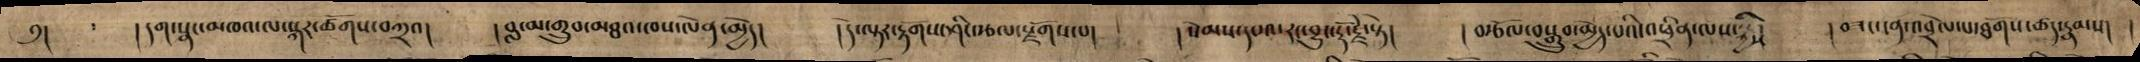༅། །དག་སྣང་མཁའ་ལ་སྐར་ཚོགས་བཀྲའ། །བླ་མ་གྲུབ་མཐའ་ཁས་ལེན་མྱེད། །དེ་ལྟར་རྟགས་ཤིང་རྩལ་སྫོགས་པ། །སེམས་དཔའ་རང་བྱུང་རྡོ་རྗེ་སྟེ། །བརྩོལ་བསྒྲུབ་མྱེད་པའི་འཕྲིན་ལས་ཀྱི། །བཟང་ངན་འབྲེལ་པ་ཐོགས་ཚད་རྣམས། །
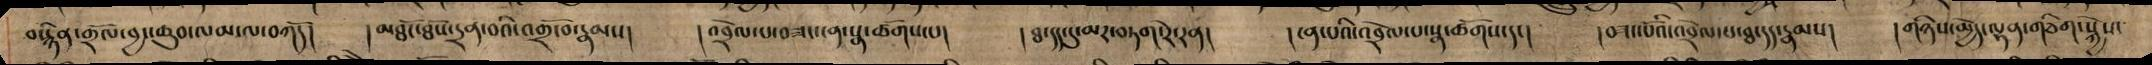བསྙིན་གྲོལ་བྱང་ཆུབ་ལམ་ལ་བཀོད། །མཐོང་ཐོས་དྲན་བའི་འགྲོ་བ་རྣམས། །འབྲེལ་པ་བཟང་ངན་སྣ་ཚོགས་པ། །ཐ་དད་དུ་མར་བཏག་རེ་རན། །ངན་པའི་འབྲེལ་པ་སྣ་ཚོགས་དང། །བཟང་པོའི་འབྲེལ་པ་ཐ་དད་རྣམས། །གཉིས་མྱེད་ལྷན་གཅིག་སྐྱེས་
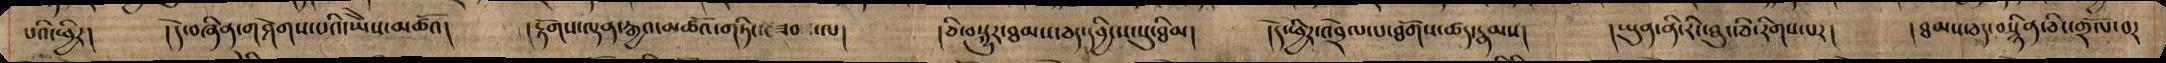པའི་ཕྱིར། །དེ་བཞིན་གཤེགས་པའི་ཡཻས་མཚོའ། །རྟོགས་ལྡན་རྒྱའ་མཚོའ་གཏིང་ཟབས་ལ། །ཅི་བསྐྱིར་ཐམས་ཅད་དབྱིངས་སུ་ཐིམ། །དེ་ཕྱིར་འབྲེལ་པ་ཐོགས་ཚད་རྣམས། །ཡུན་ནི་རིང་ཐུང་ཅི་རིགས་པར། །ཐམས་ཅད་བསྙིན་ཅིང་གྲོལ་བར
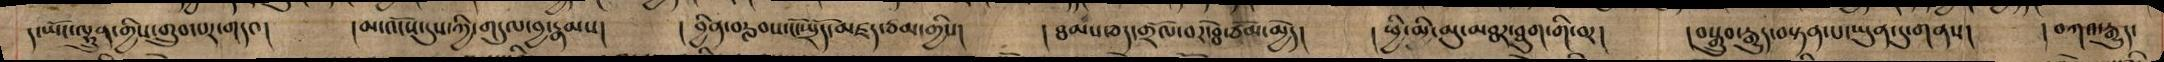ད་ཡོང་ལྷུན་གྱིས་གྲུབ་པར་གདའ། །མ་འོངས་དུས་ཀྱི་གདུལ་བྱ་རྣམས། །བྱིན་བརླབས་ངོ་སྤྲོད་མཛད་ཙམ་གྱིས། །ཐམས་ཅད་གྲོལ་བར་ཐེ་ཙོམ་མྱེད། །ཕྱི་མྱི་མུ་མཐར་ཐུག་གི་བར། །བསྒྲུབ་རྒྱུད་བསྟན་པ་ཡུན་དུ་གནས། །བཀའ་རྒྱུད་
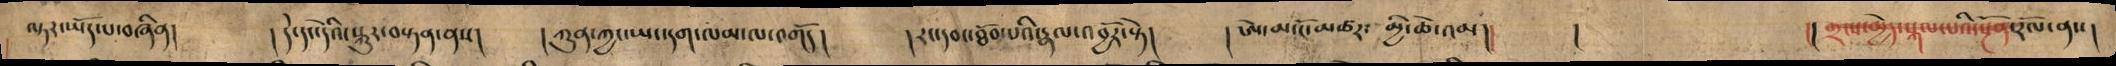ལྟར་ཡོད་པ་བཞིན། །དེ་དང་དེའི་སྐུར་བསྟན་ནས། །ཀུན་ཀྱང་ཡང་དག་ལམ་ལ་འགོད། །རང་དབང་ཐོབ་པའི་རྣལ་འབྱོར་སྟེ། །ཨེ་མ་ངོ་མཚར་ མྱི་ཆེ་འམ།། ། །།གྲངས་མྱེད་སྐལ་པའི་སྔོན་རོལ་ནས།
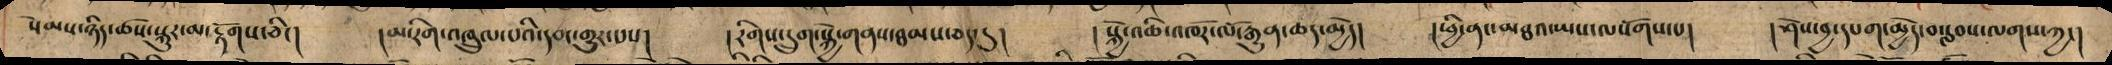སེམས་ཉིད་ཆོས་སྐུར་མ་རྟོགས་ཅིང། །མ་རིག་འཁྲུལ་པའི་དབང་གྱུར་པས། །རིགད་དྲུག་སྐྱེ་གནས་ཐམས་ཅད་དུ། །སྐྱེ་འཆི་འཁོར་ལོ་རྒྱུན་ཆད་མྱེད། །ཕྱི་ནང་མཐའ་ཡས་ལསོགས་པ། །ཤེས་བྱ་དཔག་མྱེད་བསླབས་ལགས་ཀྱང།
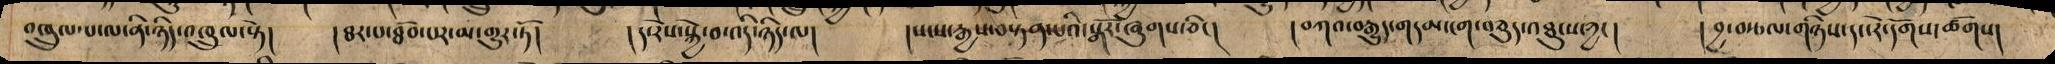འཁྲུལ་པ་ལ་ནི་ཉིད་འཁྲུལ་སྟེ། །ཐར་པ་ཐོབ་པར་མ་གྱུར་ཏོ། །ད་རེས་སྐྱེ་བ་འདི་ཉིད་ལ། །སངས་རྒྱས་བསྟན་པའི་སྒོར་ཞུགས་ཅིང། །བཀའ་བརྒྱུད་གདམ་ངག་བཅུད་འཐུངས་ཀྱང། །བྱ་བརྩལ་གཉིས་དང་རེ་དོགས་ཚོགས།
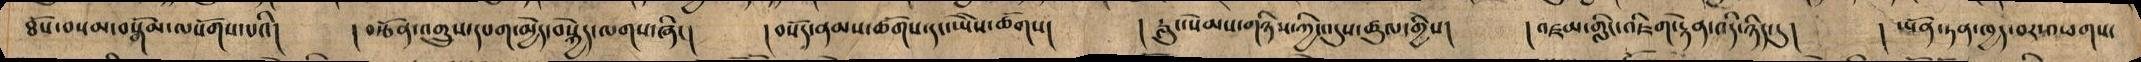ཐོས་བསམ་བསྒོམ་ལསོགས་པའི། །བརྩོན་འགྲུས་དཔག་མྱེད་བསྐྱེད་ལགས་ཞིང། །བསོད་ནམས་ཚོགས་ཡཻས་ཚོགས། །རླུང་སེམས་གཉིས་ཀྱི་འདུས་ཚུལ་གྱིས། །འཛམ་གླིང་འཇིག་རྟེན་འདི་ཉིད་དུ། །ཡོན་ཏན་ཁྱད་བར་འཕགས་
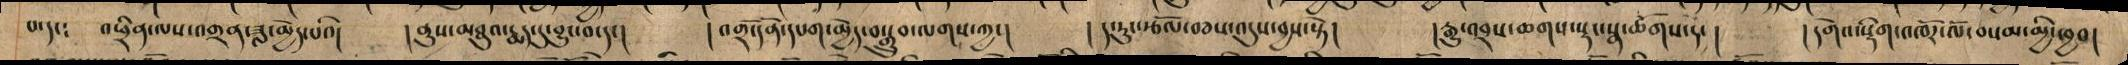པ་དང༴ འཕྲིན་ལས་འགྲན་ཟླ་མྱེད་པའི། །ནུས་མཐུའ་རྨད་དཡ་བྱུང་བ་དང། །འགྲོ་དོན་དཔག་མྱེད་བསྒྲུབ་ལགས་ཀྱང། །ད་རུང་རྩོལ་བཅས་འདུས་བྱས་སྟེ། །རྒྱུ་འབྲས་ཆགས་སྡང་སྣ་ཚོགས་དང། །དགེའ་སྡིག་འཁོར་ལོ་བསམ་མྱི་ཁྱབ།
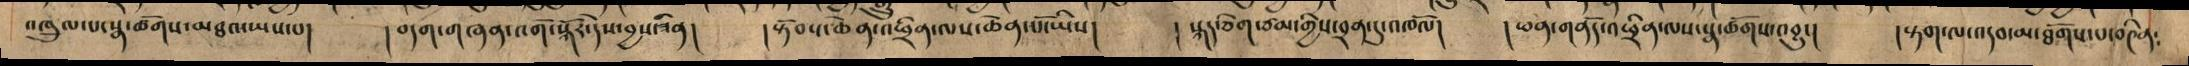འཁྲུལ་པ་སྣ་ཚོགས་མཐའ་ཡས་པ། །བདག་གཞན་འགོ་སྐོར་དེས་བྱས་ཟིན། །སྟོབས་ཆེན་འཕྲིན་ལས་ཆེན་པོ་ཡིས། །སྐད་ཅིག་ཙམ་གྱིས་བྲན་དུ་འཁོལ། །ཕན་གནོད་འཕྲིན་ལས་སྣ་ཚོགས་འབྱུང། །སྟག་ལ་འདབ་མ་ཐོགས་པ་བཞིན༴
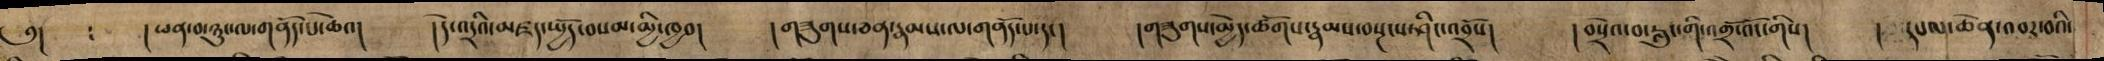༅། །ཕན་བ་ཉུང་ལ་གནོད་པ་ཆེའ། །དེ་འདྲའི་མཛད་སྤྱོད་བསམ་མྱི་ཁྱབ། །གཟུགས་ཅན་རྣམས་ལ་གནོད་པ་དང། །གཟུགས་མྱེད་ཚོགས་རྣམས་བསྔངས་ཤིང་འབྲོས། །བསྲེའ་བ་རླུང་གི་འགྲོ་འོང་གིས། ། དཔལ་ཆེན་འབར་བའི་
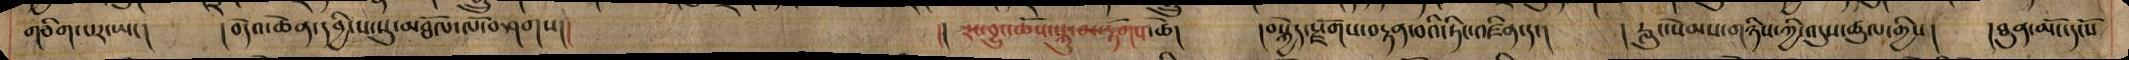གཅིག་པར་ཡང། །བདེའ་ཆེན་དབྱིངས་སུ་མཐོལ་ལོ་བཤགས།། །། རང་བྱུང་ཆོས་སྐུ་མ་རྟོགས་ཚེ། །བསྐྱེད་སྫོགས་བརྟན་བའི་ཏིང་འཛིན་དང། །རླུང་སེམས་གཉིས་ཀྱི་འདུས་ཚུལ་གྱིས། །མཐུན་མོང་དངོས
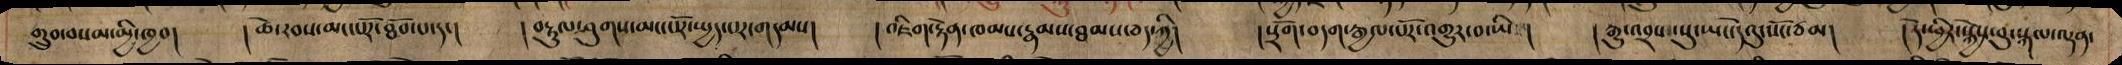གྲུབ་བསམ་མྱི་ཁྱབ། །ཚེ་རབས་མང་པོར་ཐོབ་པ་དང། །བརྟུལ་ཤུགས་མང་པོར་སྤྱད་པར་གདམས། །འཇིག་རྟེན་ཁམས་རྣམས་ཐམས་ཅད་ཀྱི། །སྲོག་བདག་རྒྱལ་པོར་འགྱུར་བ་ཡི ། །རྒྱུ་འབྲས་སུ་ཡང་དེའུ་སོང་ཙམ། །དེ་ཕྱིར་སྐྱེས་བུ་སྐལ་ལྡན་
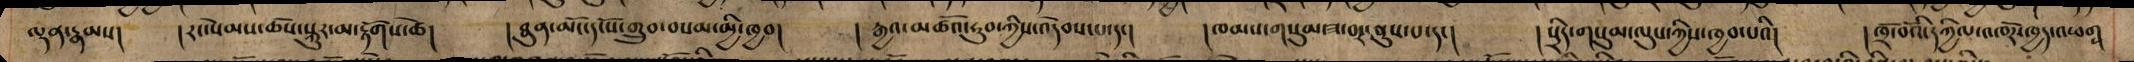ལྡན་རྣམས། །རང་སེམས་ཆོས་སྐུར་མ་རྟོགས་ཚེ། །ཐུན་མོང་དངོས་གྲུབ་བསམ་མྱི་ཁྱབ། །རྒྱའ་མཚོའ་ཧུབ་ཀྱིས་འདེབས་པ་དང། །ཁམས་གསུམ་ཟ་བར་ནུས་པ་དང། །སྲིད་གསུམ་ལུས་ཀྱིས་ཁྱབ་པའི། །ཁྲོ་བོའི་དཀྱིལ་འཁོར་ཁྱད་འཕག
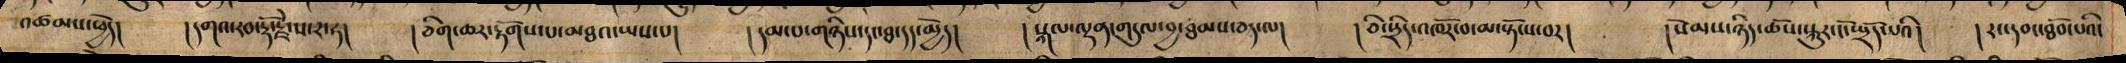འཚམས་ཕྱེད། །དགའ་རབ་རྡོ་རྗེ་ས་ར་ཧ། །ཅིག་ཆར་རྟོགས་པ་མཐའ་ཡས་པ། །དམ་པ་གཉིས་དང་ཐ་དད་མྱེད། །སྐལ་ལྡན་གདུལ་བྱ་ཐམས་ཅད་ལ། །ཅི་སྲིད་འཁོར་བ་མ་སྟོངས་བར། །སེམས་ཉིད་ཆོས་སྐུར་ངོ་སྤྲོད་པའི། །རང་དབང་ཐོབ་པའི་
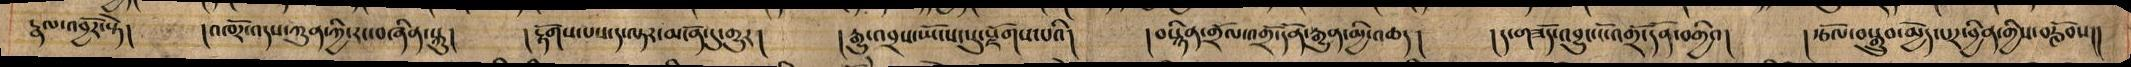རྣལ་འབྱོར་སྟེ། །འཁོར་འདས་ཀུན་ཀྱི་རང་བཞིན་སྐུ། །རྟོགས་པས་ད་ལྟར་མངོན་དུ་གྱུར། །རྒྱུ་འབྲས་ཡོངས་སུ་སྫོགས་པའི། །བསྙིན་གྲོལ་འགྲོ་དོན་རྒྱུན་མྱི་འཆད། །ད་གཟོད་འབྱུང་ངཔ་འགྲོ་དོན་བགྱིའ། །རྩོལ་བསྒྲུབ་མྱེད་པར་བྱིན་གྱིས་བརློབས།།
